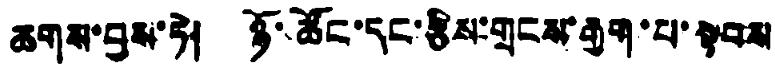ཆགས་བྱས་ཏེ། ཉོ་ཚོང་དང་རྩིས་གྲངས་རྒྱག་པ་སྟབས
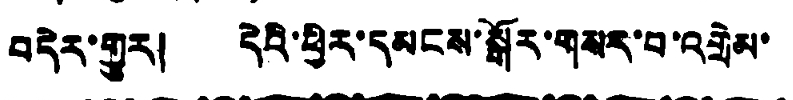བདེར་གྱུར། དེའི་ཕྱིར་དམངས་སྒོར་གསར་བ་འགྲེམ་
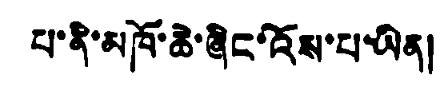པ་ནི་མཁོ་ཆེ་ཞིང་འོས་པ་ཡིན།
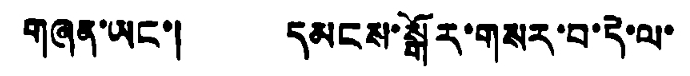གཞན་ཡང་། དམངས་སྒོར་གསར་བ་དེ་ལ་
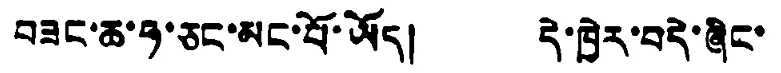བཟང་ཆ་ཧ་ཅང་མང་པོ་ཡོད། དེ་ཁྱེར་བདེ་ཞིང་
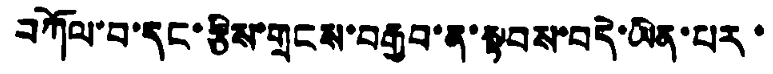བཀོལ་བ་དང་རྩིས་གྲངས་བརྒྱབ་ན་སྟབས་བདེ་ཡིན་པར་
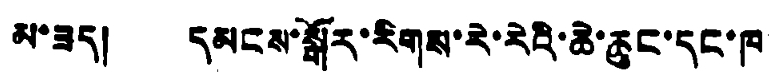མ་ཟད། དམངས་སྒོར་རིགས་རེ་རེའི་ཆེ་ཆུང་དང་ཁ
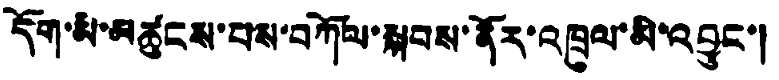དོག་མི་མཚུངས་པས་བཀོལ་སྐབས་ནོར་འཁྲུལ་མི་འབྱུང་།
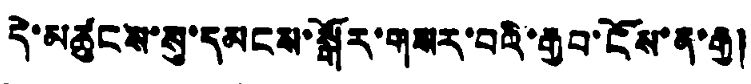དེ་མཚུངས་སུ་དམངས་སྒོར་གསར་བའི་རྒྱབ་ངོས་ན་རྒྱ།
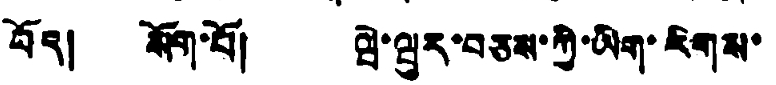བོད། སོག་པོ། ཝེ་ཝུར་བཅས་ཀྱི་ཡིག་རིགས་
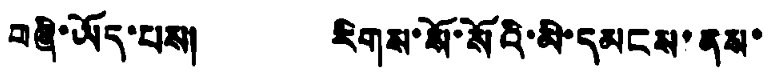བཞི་ཡོད་པས། རིགས་སོ་སོའི་མི་དམངས་ནས་
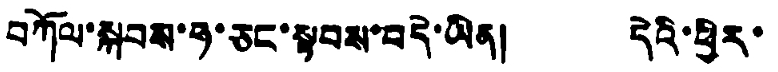བཀོལ་སྐབས་ཧ་ཅང་སྟབས་བདེ་ཡིན། དེའི་ཕྱིར་
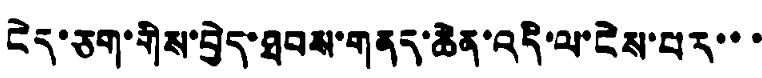ངེད་ཅག་གིས་བྱེད་ཐབས་གནད་ཆེན་འདི་ལ་ངེས་པར་་་
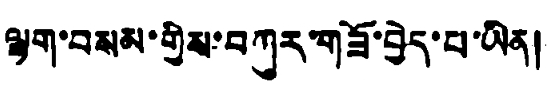ལྷག་བསམ་གྱིས་བཀུར་གཟོ་བྱེད་པ་ཡིན།
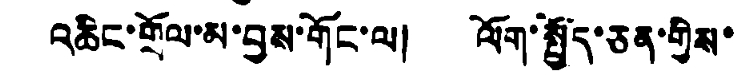འཆིང་གྲོལ་མ་བྱས་གོང་ལ། ལོག་སྤྱོད་ཅན་གྱིས་
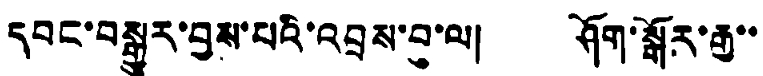དབང་བསྒྱུར་བྱས་པའི་འབྲས་བུ་ལ། ཤོག་སྒོར་རྒྱ་་
